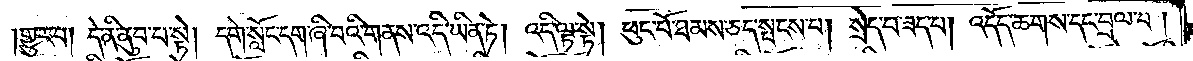གྱུར་པ། དེ་ནི་ནུབ་པ་སྟེ། དགེ་སློང་དག་ཞི་བའི་གནས་འདི་ཡིན་ཏེ། འདི་ལྟ་སྟེ། ཕུང་པོ་ཐམས་ཅད་སྤངས་པ། སྲེད་པ་ཟད་པ། འདོད་ཆགས་དང་བྲལ་བ།
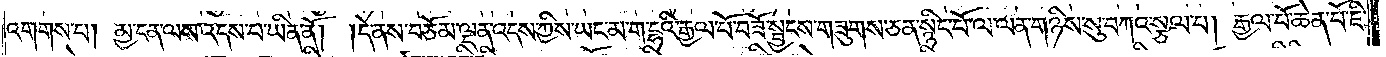འགགས་པ། མྱ་ངན་ལས་འདས་པ་ཡིན་ནོ། །དེ་ནས་བཅོམ་ལྡན་འདས་ཀྱིས་ཡང་མ་ག་དྷའི་རྒྱལ་པོ་བཟོ་སྦྱངས་གཟུགས་ཅན་སྙིང་པོ་ལ་ལན་གཉིས་སུ་བཀའ་སྩལ་པ། རྒྱལ་པོ་ཆེན་པོ་ཇི་
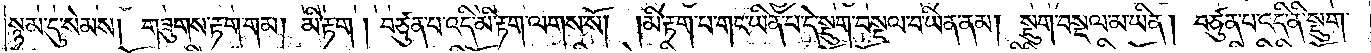སྙམ་དུ་སེམས། གཟུགས་རྟག་གམ། མི་རྟག །བཙུན་པ་འདི་མི་རྟག་ལགས་སོ། །མི་རྟག་པ་གང་ཡིན་པ་དེ་སྡུག་བསྔལ་པ་ཡིན་ནམ། སྡུག་བསྔལ་མ་ཡིན། བཙུན་པ་འདི་ནི་སྡུག་
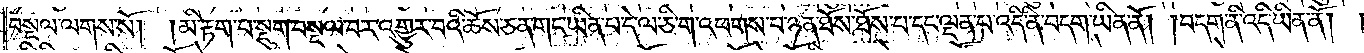བསྔལ་ལགས་སོ། །མི་རྟག་པ་སྡུག་བསྔལ་བར་འགྱུར་བའི་ཆོས་ཅན་གང་ཡིན་པ་དེ་ལ་ཅི་ག་འཕགས་པ་ཉན་ཐོས་ཐོས་པ་དང་ལྡན་པ་འདི་ནི་བདག་ཡིན་ནོ། །བདག་ནི་འདི་ཡིན་ནོ། །
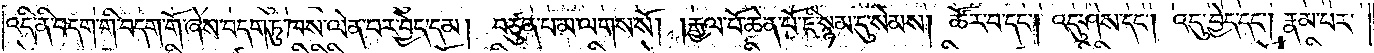འདི་ནི་བདག་གི་བདག་གོ་ཞེས་བདག་ཏུ་ཁས་ལེན་པར་བྱེད་དམ། བཙུན་པ་མ་ལགས་སོ། །རྒྱལ་པོ་ཆེན་པོ་ཇི་སྙམ་དུ་སེམས། ཚོར་བ་དང༌། འདུ་ཤེས་དང༌། འདུ་བྱེད་དང༌། རྣམ་པར་
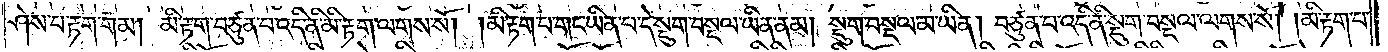ཤེས་པ་རྟག་གམ། མི་རྟག་བཙུན་པ་འདི་ནི་མི་རྟག་ལགས་སོ། །མི་རྟག་པ་གང་ཡིན་པ་དེ་སྡུག་བསྔལ་ཡིན་ནམ། སྡུག་བསྔལ་མ་ཡིན། བཙུན་པ་འདི་ནི་སྡུག་བསྔལ་ལགས་སོ། །མི་རྟག་པ་
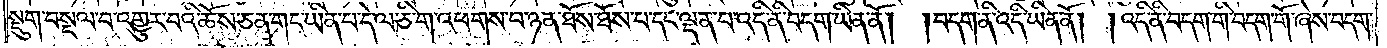སྡུག་བསྔལ་བ་འགྱུར་བའི་ཆོས་ཅན་གང་ཡིན་པ་དེ་ལ་ཅི་ག་འཕགས་པ་ཉན་ཐོས་ཐོས་པ་དང་ལྡན་པ་འདི་ནི་བདག་ཡིན་ནོ། །བདག་ནི་འདི་ཡིན་ནོ། །འདི་ནི་བདག་གི་བདག་གོ་ཞེས་བདག་
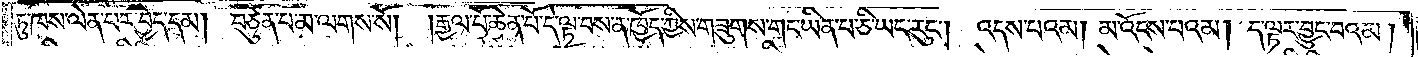ཏུ་ཁས་ལེན་པར་བྱེད་དམ། བཙུན་པ་མ་ལགས་སོ།    །རྒྱལ་པོ་ཆེན་པོ་དེ་ལྟ་བས་ན་ཁྱོད་ཀྱིས་གཟུགས་གང་ཡིན་པ་ཅི་ཡང་རུང༌། འདས་པའམ། མ་འོངས་པའམ། ད་ལྟར་བྱུང་བའམ།
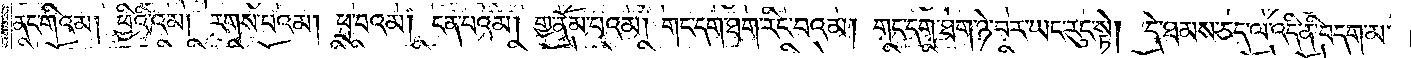ནང་གིའམ། ཕྱིའི་འམ། རགས་པའམ། ཕྲ་བའམ། ངན་པའམ། གྱ་ནོམ་པའམ། གང་དག་ཐག་རིང་བའམ། གང་དག་ཐག་ཉེ་བར་ཡང་རུང་སྟེ། དེ་ཐམས་ཅད་ལ་འདི་ནི་བདག་མ་
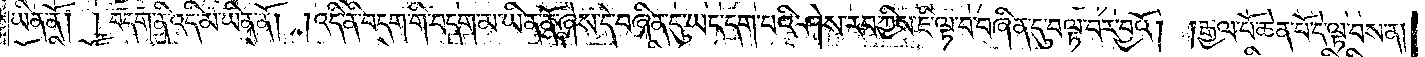ཡིན་ནོ། །བདག་ནི་འདི་མ་ཡིན་ནོ། །འདི་ནི་བདག་གི་བདག་མ་ཡིན་ནོ་ཞེས་དེ་བཞིན་དུ་ཡང་དག་པའི་ཤེས་རབ་ཀྱིས་ཇི་ལྟ་བ་བཞིན་དུ་བལྟ་བར་བྱའོ། །རྒྱལ་པོ་ཆེན་པོ་དེ་ལྟ་བས་ན།
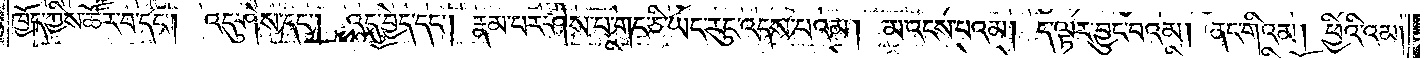ཁྱོད་ཀྱིས་ཚོར་བ་དང༌། འདུ་ཤེས་དང༌། འདུ་བྱེད་དང༌། རྣམ་པར་ཤེས་པ་གང་ཅི་ཡང་རུང་འདས་པའམ། མ་འོངས་པའམ། ད་ལྟར་བྱུང་བའམ། ནང་གིའམ། ཕྱིའི་འམ།
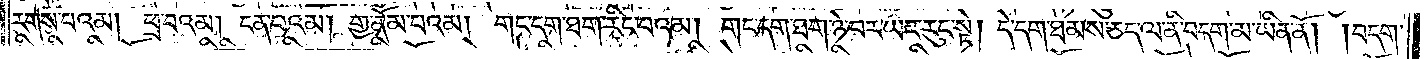རགས་པའམ། ཕྲ་བའམ། ངན་པའམ། གྱ་ནོམ་པའམ། གང་དག་ཐག་རིང་བའམ། གང་དག་ཐག་ཉེ་བར་ཡང་རུང་སྟེ། དེ་དག་ཐམས་ཅད་ལ་ནི་བདག་མ་ཡིན་ནོ། །བདག་
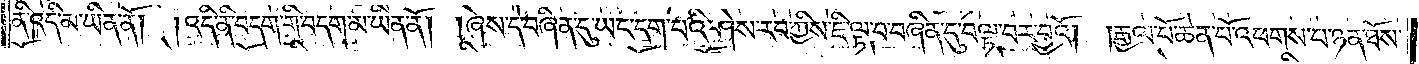ནི་འདི་མ་ཡིན་ནོ། །འདི་ནི་བདག་གི་བདག་མ་ཡིན་ནོ། །ཞེས་དེ་བཞིན་དུ་ཡང་དག་པའི་ཤེས་རབ་ཀྱིས་ཇི་ལྟ་བ་བཞིན་དུ་བལྟ་བར་བྱའོ། །རྒྱལ་པོ་ཆེན་པོ་འཕགས་པ་ཉན་ཐོས་
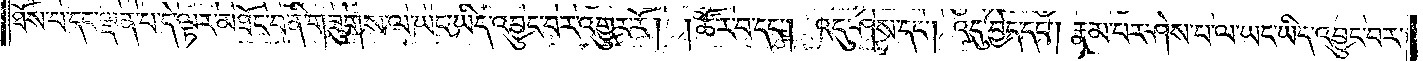ཐོས་པ་དང་ལྡན་པ་དེ་ལྟར་མཐོང་བ་ནི་གཟུགས་ལ་ཡང་ཡིད་འབྱུང་བར་འགྱུར་རོ། །ཚོར་བ་དང༌། འདུ་ཤེས་དང༌། འདུ་བྱེད་དང༌། རྣམ་པར་ཤེས་པ་ལ་ཡང་ཡིད་འབྱུང་བར་
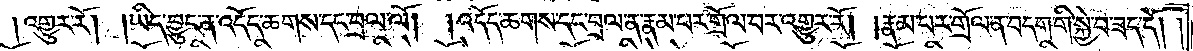འགྱུར་རོ། །ཡིད་བྱུང་ན་འདོད་ཆགས་དང་བྲལ་ལོ། །འདོད་ཆགས་དང་བྲལ་ན་རྣམ་པར་གྲོལ་བར་འགྱུར་རོ། །རྣམ་པར་གྲོལ་ན་བདག་གི་སྐྱེ་བ་ཟད་དོ༎
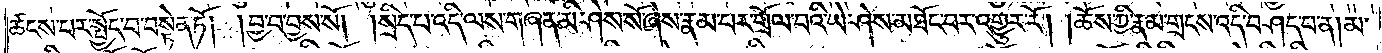ཚངས་པར་སྤྱོད་པ་བསྟེན་ཏོ། །བྱ་བ་བྱས་སོ། །སྲིད་པ་འདི་ལས་གཞན་མི་ཤེས་སོ་ཞེས་རྣམ་པར་གྲོལ་བའི་ཡེ་ཤེས་མཐོང་བར་འགྱུར་རོ། །ཆོས་ཀྱི་རྣམ་གྲངས་འདི་བཤད་པ་ན། མ་
